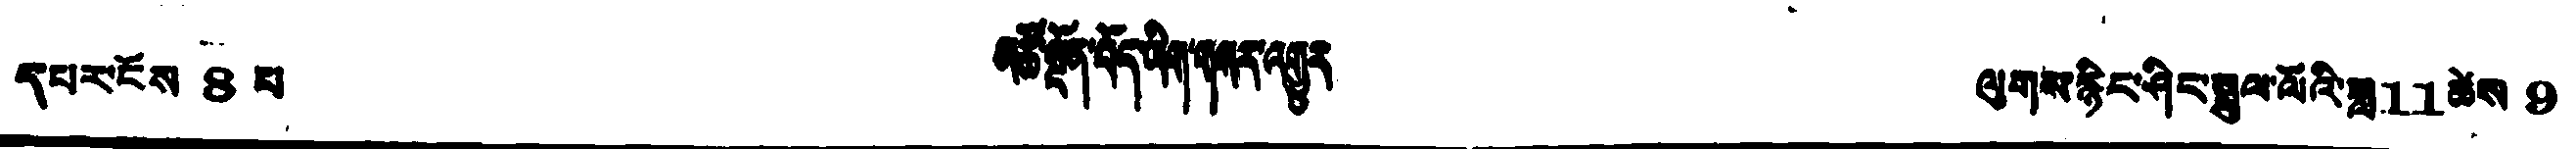དཔར་ངོས 8 པ མཚོ་སྔོན་བོད་ཡིག་གསར་འགྱུར ལུགས་རྙིང་ཤིང་སྦྲུལ་ལོའི་ཟླ 11 ཚེས 9
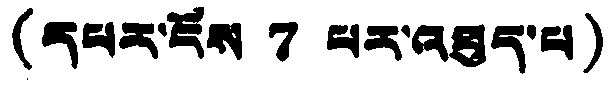(དཔར་ངོས 7 པར་འཐུད་པ)
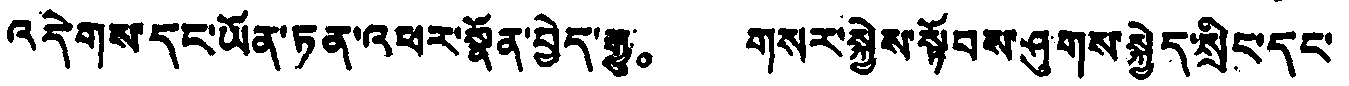འདེགས་དང་ཡོན་ཏན་འཕར་སྣོན་བྱེད་རྒྱུ。 གསར་སྐྱེས་སྟོབས་ཤུགས་སྐྱེད་སྲིང་དང་
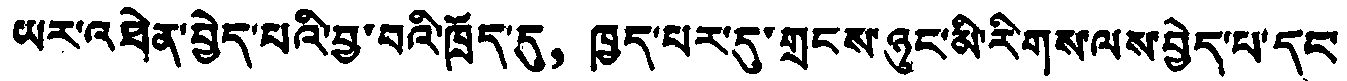ཡར་འཐེན་བྱེད་པའི་བྱ་བའི་ཁྲོད་དུ，ཁྱད་པར་དུ་གྲངས་ཉུང་མི་རིགས་ལས་བྱེད་པ་དང་
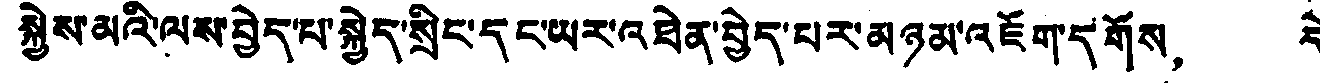སྐྱེས་མའི་ལས་བྱེད་པ་སྐྱེད་སྲིང་དང་ཡར་འཐེན་བྱེད་པར་མཉམ་འཇོག་དགོས， དེ་
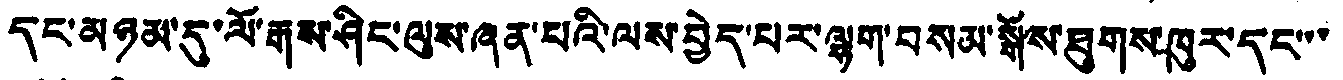དང་མཉམ་དུ་ལོ་རྒུས་ཤིང་ལུས་ཞན་པའི་ལས་བྱེད་པར་ལྷག་བསམ་སྒོས་ཐུགས་ཁུར་དང་་་
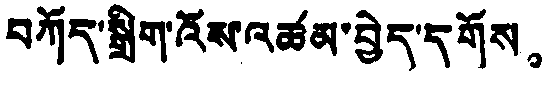བཀོད་སྒྲིག་འོས་འཚམ་བྱེད་དགོས。
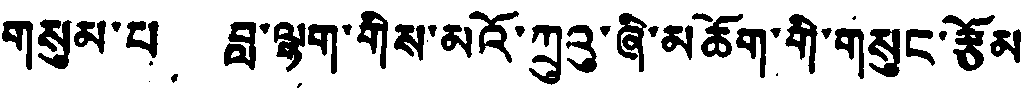གསུམ་པ、 བླ་ལྷག་གིས་མའོ་ཀྲུའུ་ཞི་མཆོག་གི་གསུང་རྩོམ
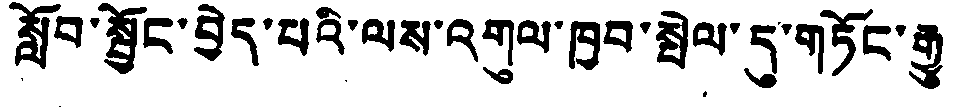སློབ་སྦྱོང་བྱེད་པའི་ལས་འགུལ་ཁྱབ་སྤེལ་དུ་གཏོང་རྒྱུ
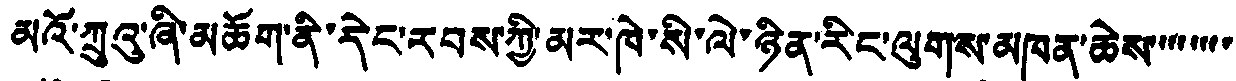མའོ་ཀྲུའུ་ཞི་མཆོག་ནི་དེང་རབས་ཀྱི་མར་ཁེ་སི་ལེ་ཉིན་རིང་ལུགས་མཁན་ཆེས་་་་་་་
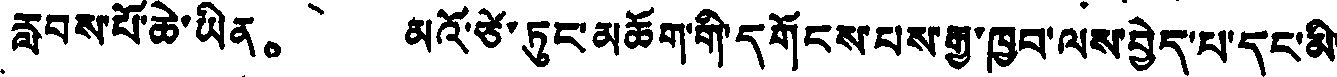རླབས་པོ་ཆེ་ཡིན。 མའོ་ཙེ་ཏུང་མཆོག་གི་དགོངས་པས་རྒྱ་ཁྱབ་ལས་བྱེད་པ་དང་མི་
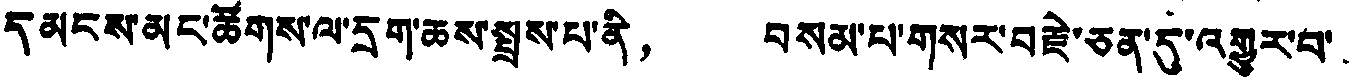དམངས་མང་ཚོགས་ལ་དྲག་ཆས་སྤྲས་པ་ནི， བསམ་པ་གསར་བརྗེ་ཅན་དུ་འགྱུར་བ་
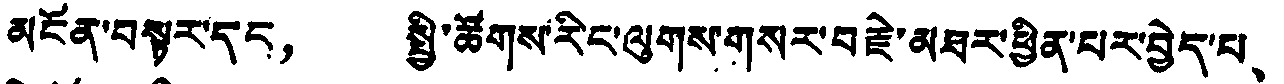མངོན་བསྟར་དང， སྤྱི་ཚོགས་རིང་ལུགས་གསར་བརྗེ་མཐར་ཕྱིན་པར་བྱེད་པ、
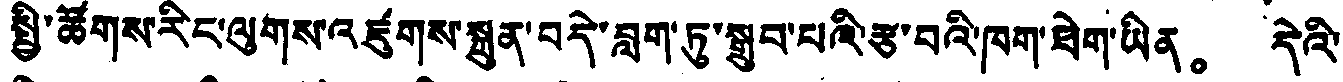སྤྱི་ཚོགས་རིང་ལུགས་འཛུགས་སྐྲུན་བདེ་བླག་ཏུ་སྒྲུབ་པའི་རྩ་བའི་ཁག་ཐེག་ཡིན。 དེའི་
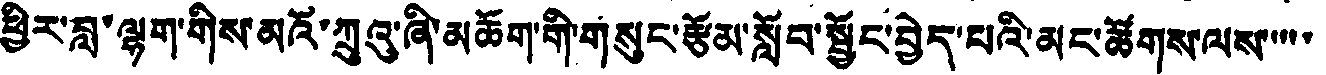ཕྱིར་བླ་ལྷག་གིས་མའོ་ཀྲུའུ་ཞི་མཆོག་གི་གསུང་རྩོམ་སློབ་སྦྱོང་བྱེད་པའི་མང་ཚོགས་ལས་་་་་
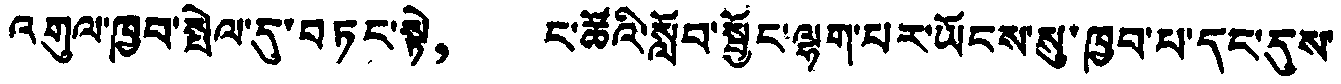འགུལ་ཁྱབ་སྤེལ་དུ་བཏང་སྟེ， ང་ཚོའི་སློབ་སྦྱོང་ལྷག་པར་ཡོངས་སུ་ཁྱབ་པ་དང་དུས་
